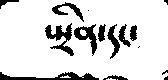སྤྲིན་དང་
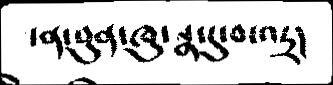་ན་བུན་ཁུ་སྣ་དུ་བ་འདྲ།
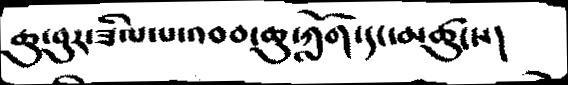ཆུ་བར་ཟིལ་པ་འབབ་ཆུ་ཀློག་དང་མཚུངས།
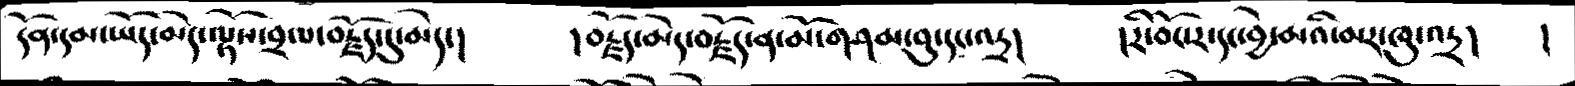དོན་དམ་ཡོད་མེད་ལྟོས་བྲལ་བརྗོད་དུ་མེད་།    །བརྗོད་མེད་བརྗོད་ན་མོ་གཤམ་བུ་དང་འདྲ།     །རི་བོང་ར་དང་བྱེ་མའི་མར་ཁུ་འདྲ།         །
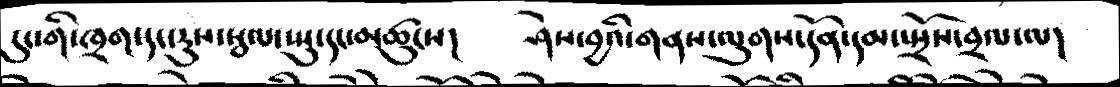དུང་གི་ཁྲག་དང་རུས་སྦལ་སྤུ་དང་མཚུངས།   ཤེས་བྱའི་གནས་ལུགས་དོན་དམ་སྤྲོས་བྲལ་ལ།
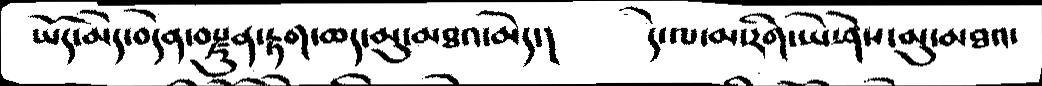ཡོད་མེད་བདེན་རྫུན་རྟག་ཆད་མུ་མཐའ་མེད་།     དེ་ལ་མ་རིག་ཡེ་ཤེས་མུ་མཐའ་
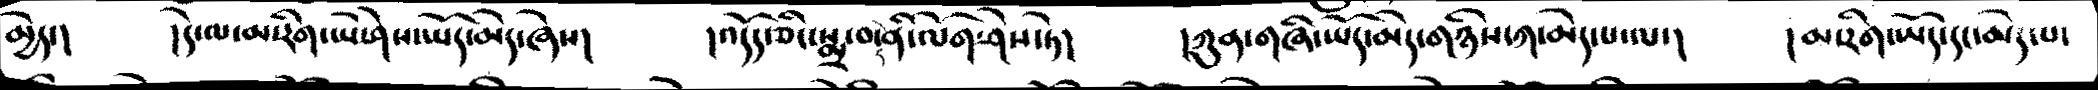མྱེད་།   །དེ་ལ་མ་རིག་ཡེ་ཤེས་ཡོད་མེད་ཞེས།   །འདོད་ཅིང་སྨྲ་བ་དེ་ནི་ལོག་ཤེས་ཏེ།   །ཀུན་གཞི་ཡོད་མེད་གཉིས་ཀ་མེད་པ་ལ་།    །མ་རིག་ཡོད་དང་མེད་པ་
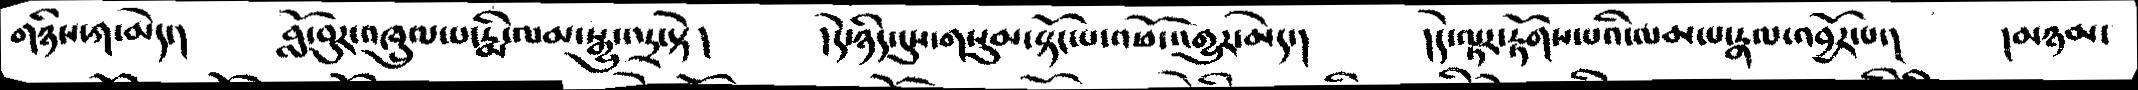གཉིས་པ་མེད་།   བློ་བུར་འཁྲུལ་པ་རྨི་ལམ་སྒྱུ་འདྲ་སྟེ།    །དེ་ཉིད་དུས་གསུམ་སྟོང་པ་འཕོ་འགྱུར་མེད་།   །དེ་ལྟར་རྟོགས་པའི་ལམ་པ་རྣལ་འབྱོར་པ་།   །མཉམ་
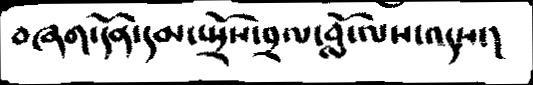བཞག་དོན་དམ་སྤྲོས་བྲལ་བློ་ལས་འདས་།
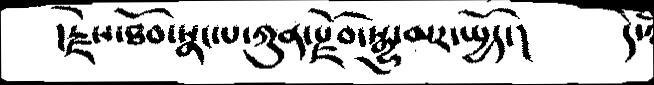།རྗེས་ཐོབ་སྣང་པ་ཀུན་རྫོབ་སྒྱུ་མར་སྤྱོད་།   དེ་
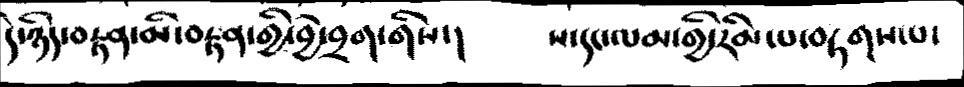དེ་ཉིད་བརྟན་མི་བརྟན་གྱི་བྱེ་བྲག་གིས་།   ས་དང་ལམ་གྱི་རིམ་པ་བརྟགས་པ་
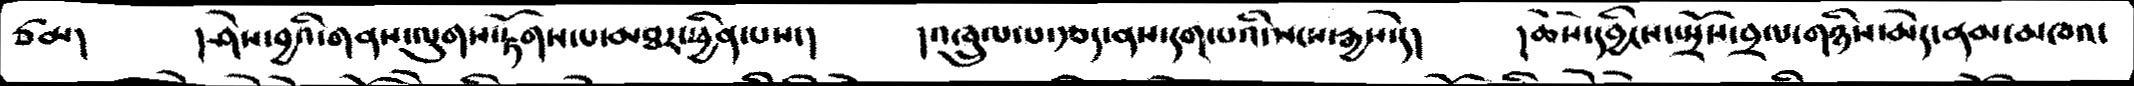ཙམ།  །ཤེས་བྱའི་གནས་ལུགས་རྟོགས་པ་མཐར་ཕྱིན་པས་།    །འཁྲུལ་པ་རྩད་ནས་དག་པའི་སངས་རྒྱས་དེ།   ཆོས་དབྱིངས་སྤྲོས་བྲལ་གཉིས་མེད་ནམ་མཁའ་
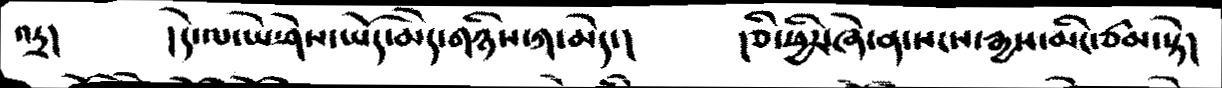འདྲ།      །དེ་ལ་ཡེ་ཤེས་ཡོད་མེད་གཉིས་ཀ་མེད་།      །ཅི་ཕྱིར་ཞེ་ན་སངས་རྒྱས་མིང་ཙམ་སྟེ།
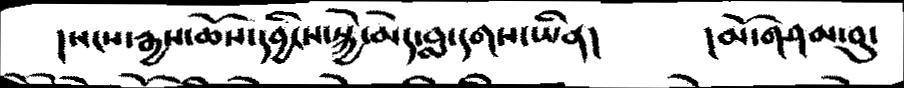།སངས་རྒྱས་ཆོས་དབྱིངས་སྐྱེ་མེད་བླ་དགས་ཡིན།     །མོ་གཤམ་བུ་
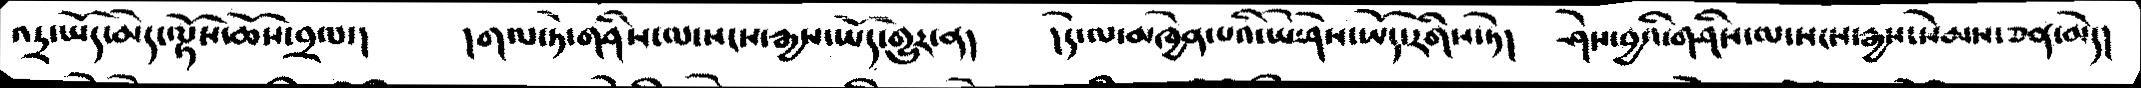འདྲ་ཡོད་མེད་ལྟོས་ཆོས་བྲལ་།    །གལ་ཏེ་གཤིས་ལ་སངས་རྒྱས་ཡོད་གྱུར་ན།      ། དེ་ལ་མཁྱེན་པའི་ཡེ་ཤེས་ཡོད་རིགས་ཏེ།    ཤེས་བྱའི་གཤིས་ལ་སངས་རྒྱས་སེམས་ཅན་མེད།
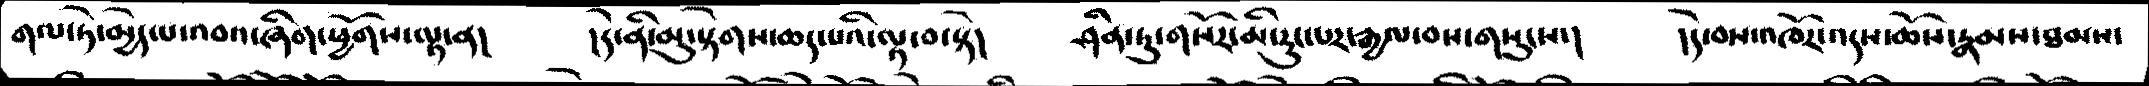གལ་ཏེ་མྱེད་པ་འབའ་ཞིག་ཕྱོགས་ལྟ་ན།   །དེ་ནི་མུ་སྟེགས་ཆད་པའི་ལྟ་བ་སྟེ།    ཤིན་ཏུ་གསོར་མི་རུང་པར་རྒྱས་བས་གསུངས་།   །དེ་བས་འཁོར་འདས་ཆོས་རྣམས་ཐམས་
